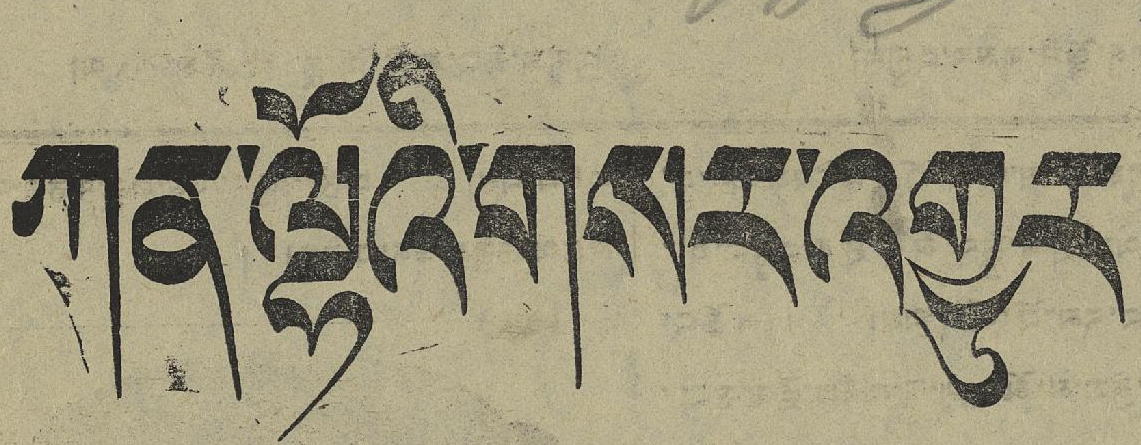ཀན་ལྷོའི་གསར་འགྱུར
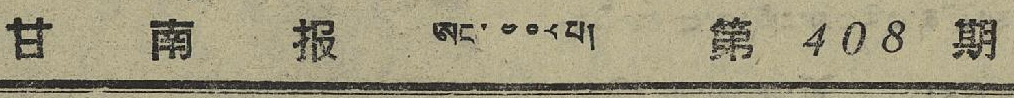甘 南 报 ཨང་ ༤༠༨ པ། 第 408 期
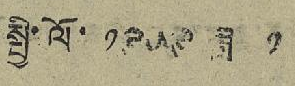སྤྱི་ལོ་ ༡༩༥༩ ཟླ་ ༡
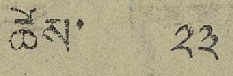ཚེས་ ༢༣
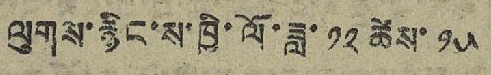ལུགས་རྙིང་ས་ཁྱི་ལོ་ཟླ་ ༡༢ ཚེས་ ༡༥
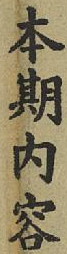本期內容
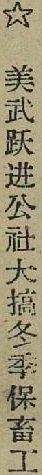☆ 美武跃进公社大搞冬季保畜工
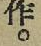作。
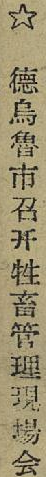☆ 德烏魯市召开牲畜管理現場会
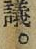議。
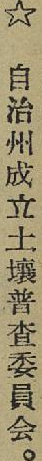☆ 自治州成立土壤普查委員会。
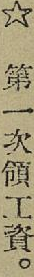第一次領工資。
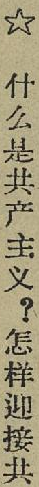☆ 什么是共产主义？怎样迎接共
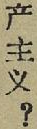产主义？
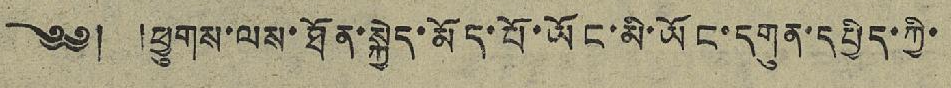༄༅། །ཕྱུགས་ལས་ཐོན་སྐྱེད་མོད་པོ་ཡོང་མི་ཡོང་དགུན་དཔྱིད་ཀྱི་
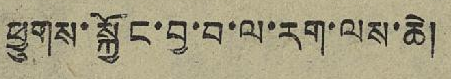ཕྱུགས་སྐྱོང་བྱ་བ་ལ་རག་ལས་ཆེ།
